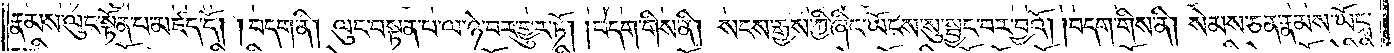རྣམས་ལུང་སྟོན་པ་མཛད་དོ། །བདག་ནི། ལུང་བསྟན་པ་ལ་ཉེ་བར་གྱུར་ཏོ། །བདག་གིས་ནི། སངས་རྒྱས་ཀྱི་ཞིང་ཡོངས་སུ་སྦྱང་བར་བྱའོ། །བདག་གིས་ནི། སེམས་ཅན་རྣམས་ཡོངས་
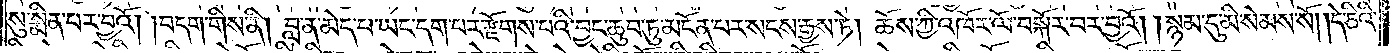སུ་སྨིན་པར་བྱའོ། །བདག་གིས་ནི། བླ་ན་མེད་པ་ཡང་དག་པར་རྫོགས་པའི་བྱང་ཆུབ་ཏུ་མངོན་པར་སངས་རྒྱས་ཏེ། ཆོས་ཀྱི་འཁོར་ལོ་བསྐོར་བར་བྱའོ། །སྙམ་དུ་མི་སེམས་སོ། །དེ་ཅིའི་
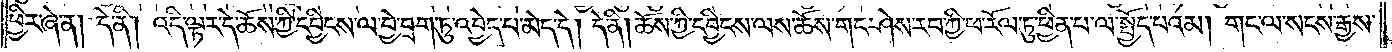ཕྱིར་ཞེ་ན། དེ་ནི། འདི་ལྟར་དེ་ཆོས་ཀྱི་དབྱིངས་ལ་བྱེ་བྲག་ཏུ་འབྱེད་པ་མེད་དེ། དེ་ནི། ཆོས་ཀྱི་དབྱིངས་ལས་ཆོས་གང་ཤེས་རབ་ཀྱི་ཕ་རོལ་ཏུ་ཕྱིན་པ་ལ་སྤྱོད་པའམ། གང་ལ་སངས་རྒྱས་
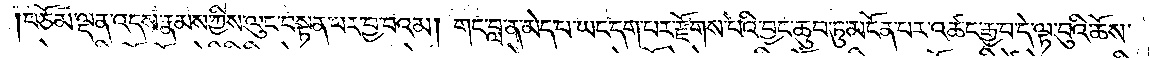བཅོམ་ལྡན་འདས་རྣམས་ཀྱིས་ལུང་བསྟན་པར་བྱ་བའམ། གང་བླ་ན་མེད་པ་ཡང་དག་པར་རྫོགས་པའི་བྱང་ཆུབ་ཏུ་མངོན་པར་འཚང་རྒྱ་བ་དེ་ལྟ་བུའི་ཆོས་
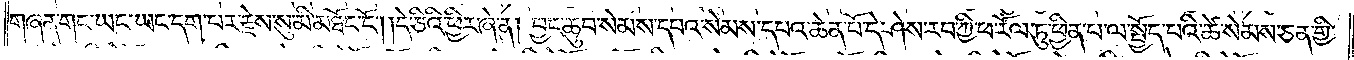གཞན་གང་ཡང་ཡང་དག་པར་རྗེས་སུ་མི་མཐོང་ངོ༌། །དེ་ཅིའི་ཕྱིར་ཞེ་ན། བྱང་ཆུབ་སེམས་དཔའ་སེམས་དཔའ་ཆེན་པོ་དེ་ཤེས་རབ་ཀྱི་ཕ་རོལ་ཏུ་ཕྱིན་པ་ལ་སྤྱོད་པའི་ཚེ་སེམས་ཅན་གྱི་
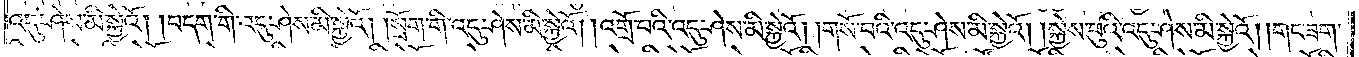འདུ་ཤེས་མི་སྐྱེའོ། །བདག་གི་འདུ་ཤེས་མི་སྐྱེའོ། །སྲོག་གི་འདུ་ཤེས་མི་སྐྱེའོ། །འགྲོ་བའི་འདུ་ཤེས་མི་སྐྱེའོ། །གསོ་བའི་འདུ་ཤེས་མི་སྐྱེའོ། །སྐྱེས་བུའི་འདུ་ཤེས་མི་སྐྱེའོ། །གང་ཟག་
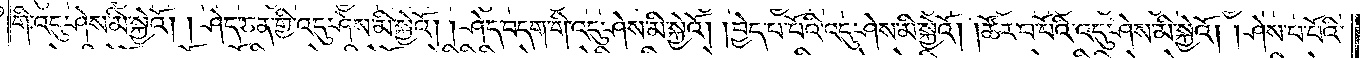གི་འདུ་ཤེས་མི་སྐྱེའོ། །ཤེད་ཅན་གྱི་འདུ་ཤེས་མི་སྐྱེའོ། །ཤེད་བདག་གི་འདུ་ཤེས་མི་སྐྱེའོ། །བྱེད་པ་པོའི་འདུ་ཤེས་མི་སྐྱེའོ། །ཚོར་བ་པོའི་འདུ་ཤེས་མི་སྐྱེའོ། །ཤེས་པ་པོའི་
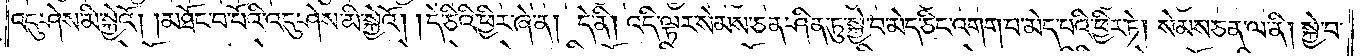འདུ་ཤེས་མི་སྐྱེའོ། །མཐོང་བ་པོའི་འདུ་ཤེས་མི་སྐྱེའོ། །དེ་ཅིའི་ཕྱིར་ཞེ་ན། དེ་ནི། འདི་ལྟར་སེམས་ཅན་ཤིན་ཏུ་སྐྱེ་བ་མེད་ཅིང་འགག་པ་མེད་པའི་ཕྱིར་ཏེ། སེམས་ཅན་ལ་ནི། སྐྱེ་བ་
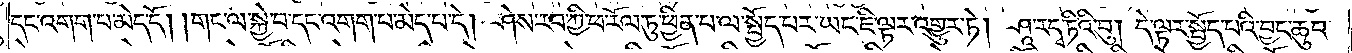དང་འགག་པ་མེད་དོ། །གང་ལ་སྐྱེ་བ་དང་འགག་པ་མེད་པ་དེ། ཤེས་རབ་ཀྱི་ཕ་རོལ་ཏུ་ཕྱིན་པ་ལ་སྤྱོད་པར་ཡང་ཇི་ལྟར་འགྱུར་ཏེ། ཤཱ་རདྭ་ཏིའི་བུ། དེ་ལྟར་སྤྱོད་པའི་བྱང་ཆུབ་
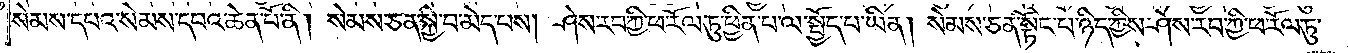སེམས་དཔའ་སེམས་དཔའ་ཆེན་པོ་ནི། སེམས་ཅན་སྐྱེ་བ་མེད་པས། ཤེས་རབ་ཀྱི་ཕ་རོལ་ཏུ་ཕྱིན་པ་ལ་སྤྱོད་པ་ཡིན། སེམས་ཅན་སྟོང་པ་ཉིད་ཀྱིས་ཤེས་རབ་ཀྱི་ཕ་རོལ་ཏུ་
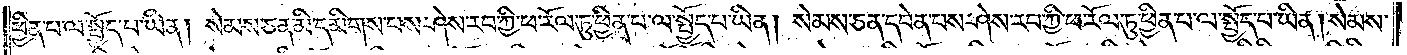ཕྱིན་པ་ལ་སྤྱོད་པ་ཡིན། སེམས་ཅན་མི་དམིགས་པས་ཤེས་རབ་ཀྱི་ཕ་རོལ་ཏུ་ཕྱིན་པ་ལ་སྤྱོད་པ་ཡིན། སེམས་ཅན་དབེན་པས་ཤེས་རབ་ཀྱི་ཕ་རོལ་ཏུ་ཕྱིན་པ་ལ་སྤྱོད་པ་ཡིན། སེམས་
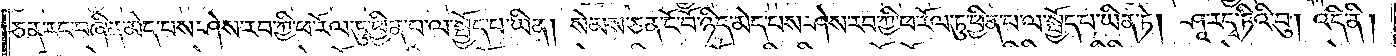ཅན་རང་བཞིན་མེད་པས་ཤེས་རབ་ཀྱི་ཕ་རོལ་ཏུ་ཕྱིན་པ་ལ་སྤྱོད་པ་ཡིན། སེམས་ཅན་ངོ་བོ་ཉིད་མེད་པས་ཤེས་རབ་ཀྱི་ཕ་རོལ་ཏུ་ཕྱིན་པ་ལ་སྤྱོད་པ་ཡིན་ཏེ། ཤཱ་རདྭ་ཏིའི་བུ། འདི་ནི།
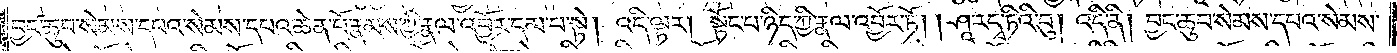བྱང་ཆུབ་སེམས་དཔའ་སེམས་དཔའ་ཆེན་པོ་རྣམས་ཀྱི་རྣལ་འབྱོར་དམ་པ་སྟེ། འདི་ལྟར། སྟོང་པ་ཉིད་ཀྱི་རྣལ་འབྱོར་ཏོ། །ཤཱ་རདྭ་ཏིའི་བུ། འདི་ནི། བྱང་ཆུབ་སེམས་དཔའ་སེམས་
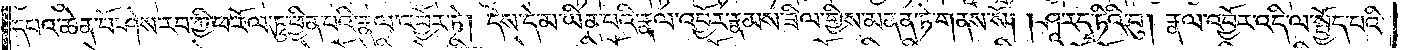དཔའ་ཆེན་པོ་ཤེས་རབ་ཀྱི་ཕ་རོལ་ཏུ་ཕྱིན་པའི་རྣལ་འབྱོར་ཏེ། དེས་དེ་མ་ཡིན་པའི་རྣལ་འབྱོར་རྣམས་ཟིལ་གྱིས་མནན་ཏེ་གནས་སོ། །ཤཱ་རདྭ་ཏིའི་བུ། རྣལ་འབྱོར་འདི་ལ་སྤྱོད་པའི་
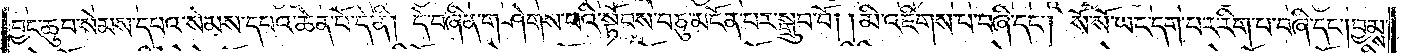བྱང་ཆུབ་སེམས་དཔའ་སེམས་དཔའ་ཆེན་པོ་དེ་ནི། དེ་བཞིན་གཤེགས་པའི་སྟོབས་བཅུ་མངོན་པར་སྒྲུབ་བོ། །མི་འཇིགས་པ་བཞི་དང༌། སོ་སོ་ཡང་དག་པར་རིག་པ་བཞི་དང༌། བྱམས་
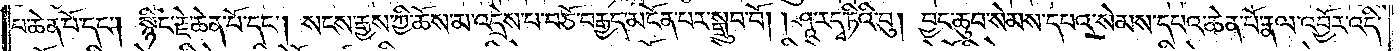པ་ཆེན་པོ་དང༌། སྙིང་རྗེ་ཆེན་པོ་དང༌། སངས་རྒྱས་ཀྱི་ཆོས་མ་འདྲེས་པ་བཅོ་བརྒྱད་མངོན་པར་སྒྲུབ་བོ། །ཤཱ་རདྭ་ཏིའི་བུ། བྱང་ཆུབ་སེམས་དཔའ་སེམས་དཔའ་ཆེན་པོ་རྣལ་འབྱོར་འདི་
